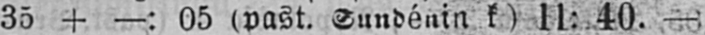35 + —: 05 (past. Sundénin k) 11: 40. —;
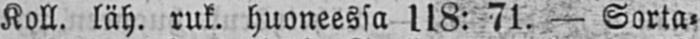Koll. läh. ruk. huoneessa 118: 71. — Sorta-
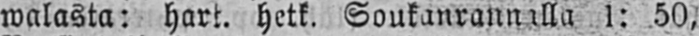walasta: hart. hetk. Soukanrannalla 1: 50,
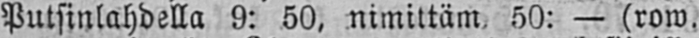Putsinlahdella 9: 50. nimittäm 50: — (row.
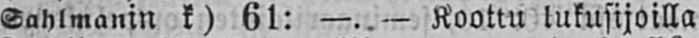Sahlmanin k) 61: —. — Koottu lukusijoilla
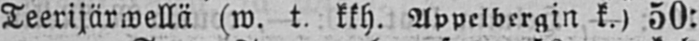Teerijärwellä (w. t. kkh. Appelbergin k.) 50:
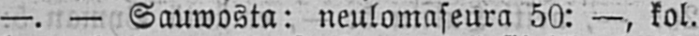—. — Sauwosta: neulomaseura 50: —, kol.
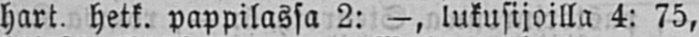hart. hetk. pappilassa 2: —, lukusijoilla 4: 75,
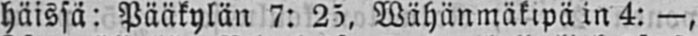häissä: Pääkylän 7: 25, Wähänmäkipä in 4: —,
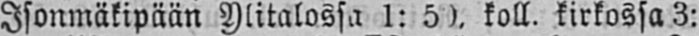Isonmäkipään Ylitalossa 1: 50, koll. kirkossa 3:
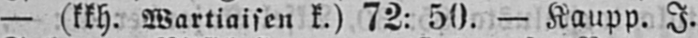— (kkh. Wartiaisen k.) 72: 50. — Kaupp. J.
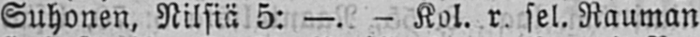Suhonen, Nilsiä 5: —. — Kol. r. sel. Rauman
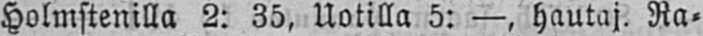Holmstenilla 2: 35, Uotilla 5: —, hautaj. Ra-
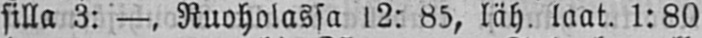silla 3: —, Ruoholassa 12: 85, läh. laat. 1:80
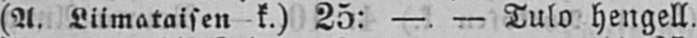(A. Liimataisen k.) 25: —. — Tulo hengell.
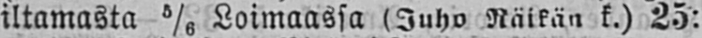iltamasta 5/6, Loimaassa (Juho Räikän k.) 25:
